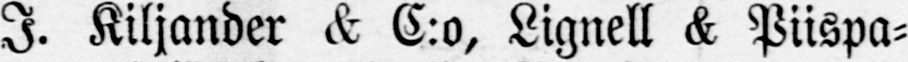I. Kiljander & C:o, Lignell & Piispa-
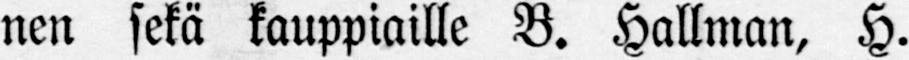nen sekä kauppiaille B. Hallman, H.
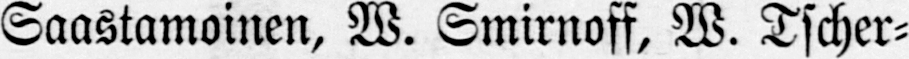Saastamoinen, W. Smirnoff, W. Tscher-
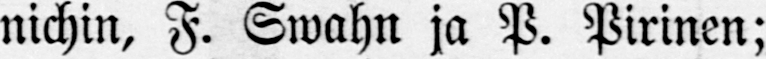nichin, F. Swahn ja P. Pirinen;
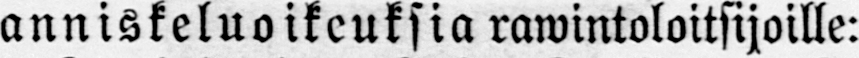anniskeluoikeuksia rawintoloitsijoille:
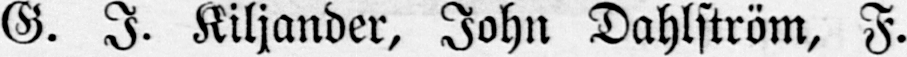G. I. Kiljander, John Dahlström, F.
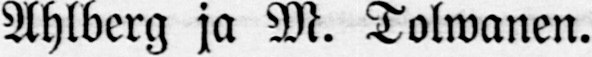Ahlberg ja M. Tolwanen.
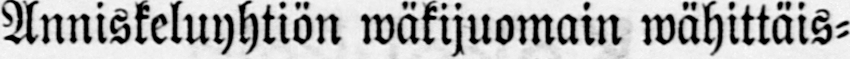Anniskeluyhtiön wäkijuomain wähittäis-
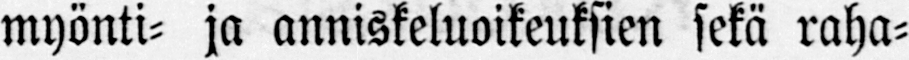myönti- ja anniskeluoikeuksien sekä raha-
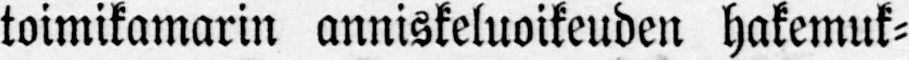toimikamarin anniskeluoikeuden hakemuk-
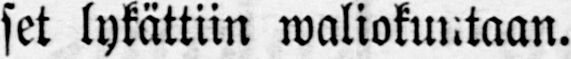set lykättiin waliokuntaan.
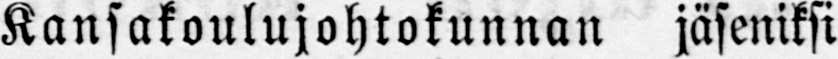Kansakoulujohtokunnan jäseniksi
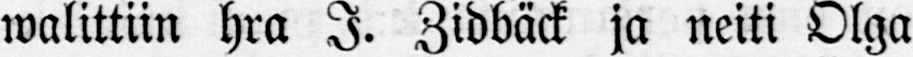walittiin hra I. Zidbäck ja neiti Olga
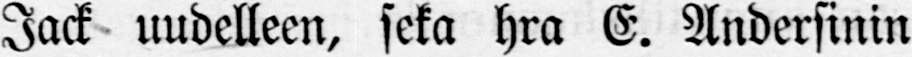Jack uudelleen, seka hra E. Andersinin
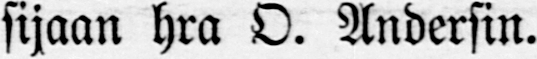sijaan hra O. Andersin.
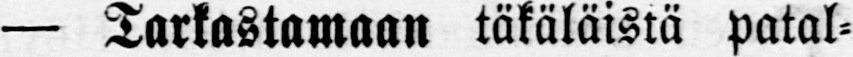— Tarkastamaan täkäläisiä patal-
